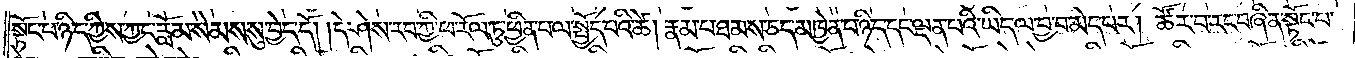སྟོང་པ་ཉིད་ཀྱིས་ཀྱང་རློམ་སེམས་སུ་བྱེད་དོ། །དེ་ཤེས་རབ་ཀྱི་ཕ་རོལ་ཏུ་ཕྱིན་པ་ལ་སྤྱོད་པའི་ཚེ། རྣམ་པ་ཐམས་ཅད་མཁྱེན་པ་ཉིད་དང་ལྡན་པའི་ཡིད་ལ་བྱ་བ་མེད་པར། ཚོར་བ་རང་བཞིན་སྟོང་པ་
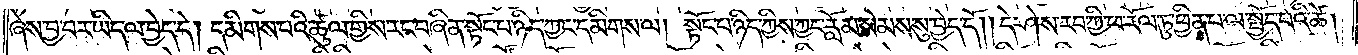ཞེས་བྱ་བར་ཡིད་ལ་བྱེད་དེ། དམིགས་པའི་ཚུལ་གྱིས་རང་བཞིན་སྟོང་པ་ཉིད་ཀྱང་དམིགས་ལ། སྟོང་པ་ཉིད་ཀྱིས་ཀྱང་རློམ་སེམས་སུ་བྱེད་དོ། །དེ་ཤེས་རབ་ཀྱི་ཕ་རོལ་ཏུ་ཕྱིན་པ་ལ་སྤྱོད་པའི་ཚེ།
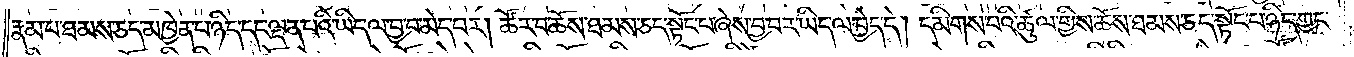རྣམ་པ་ཐམས་ཅད་མཁྱེན་པ་ཉིད་དང་ལྡན་པའི་ཡིད་ལ་བྱ་བ་མེད་པར། ཚོར་བ་ཆོས་ཐམས་ཅད་སྟོང་པ་ཞེས་བྱ་བར་ཡིད་ལ་བྱེད་དེ། དམིགས་པའི་ཚུལ་གྱིས་ཆོས་ཐམས་ཅད་སྟོང་པ་ཉིད་ཀྱང་
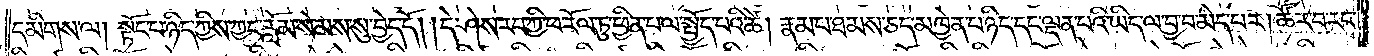དམིགས་ལ། སྟོང་པ་ཉིད་ཀྱིས་ཀྱང་རློམ་སེམས་སུ་བྱེད་དོ། །དེ་ཤེས་རབ་ཀྱི་ཕ་རོལ་ཏུ་ཕྱིན་པ་ལ་སྤྱོད་པའི་ཚེ། རྣམ་པ་ཐམས་ཅད་མཁྱེན་པ་ཉིད་དང་ལྡན་པའི་ཡིད་ལ་བྱ་བ་མེད་པར། ཚོར་བ་རང་
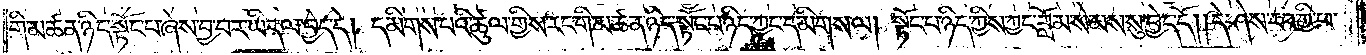གི་མཚན་ཉིད་སྟོང་པ་ཞེས་བྱ་བར་ཡིད་ལ་བྱེད་དེ། དམིགས་པའི་ཚུལ་གྱིས་རང་གི་མཚན་ཉིད་སྟོང་པ་ཉིད་ཀྱང་དམིགས་ལ། སྟོང་པ་ཉིད་ཀྱིས་ཀྱང་རློམ་སེམས་སུ་བྱེད་དོ། །དེ་ཤེས་རབ་ཀྱི་ཕ་
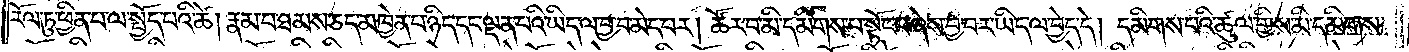རོལ་ཏུ་ཕྱིན་པ་ལ་སྤྱོད་པའི་ཚེ། རྣམ་པ་ཐམས་ཅད་མཁྱེན་པ་ཉིད་དང་ལྡན་པའི་ཡིད་ལ་བྱ་བ་མེད་པར། ཚོར་བ་མི་དམིགས་པ་སྟོང་པ་ཞེས་བྱ་བར་ཡིད་ལ་བྱེད་དེ། དམིགས་པའི་ཚུལ་གྱིས་མི་དམིགས་
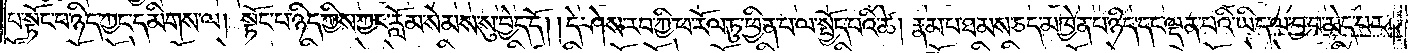པ་སྟོང་པ་ཉིད་ཀྱང་དམིགས་ལ། སྟོང་པ་ཉིད་ཀྱིས་ཀྱང་རློམ་སེམས་སུ་བྱེད་དོ། །དེ་ཤེས་རབ་ཀྱི་ཕ་རོལ་ཏུ་ཕྱིན་པ་ལ་སྤྱོད་པའི་ཚེ། རྣམ་པ་ཐམས་ཅད་མཁྱེན་པ་ཉིད་དང་ལྡན་པའི་ཡིད་ལ་བྱ་བ་མེད་པར།
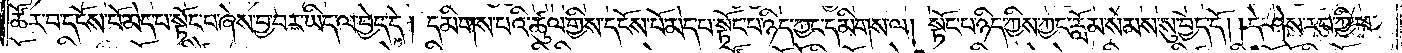ཚོར་བ་དངོས་པོ་མེད་པ་སྟོང་པ་ཞེས་བྱ་བར་ཡིད་ལ་བྱེད་དེ། དམིགས་པའི་ཚུལ་གྱིས་དངོས་པོ་མེད་པ་སྟོང་པ་ཉིད་ཀྱང་དམིགས་ལ། སྟོང་པ་ཉིད་ཀྱིས་ཀྱང་རློམ་སེམས་སུ་བྱེད་དོ། །དེ་ཤེས་རབ་ཀྱི་ཕ་
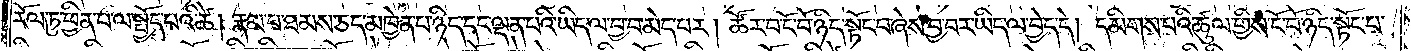རོལ་ཏུ་ཕྱིན་པ་ལ་སྤྱོད་པའི་ཚེ། རྣམ་པ་ཐམས་ཅད་མཁྱེན་པ་ཉིད་དང་ལྡན་པའི་ཡིད་ལ་བྱ་བ་མེད་པར། ཚོར་བ་ངོ་བོ་ཉིད་སྟོང་པ་ཞེས་བྱ་བར་ཡིད་ལ་བྱེད་དེ། དམིགས་པའི་ཚུལ་གྱིས་ངོ་བོ་ཉིད་སྟོང་པ་
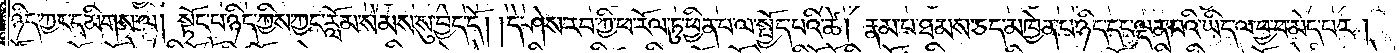ཉིད་ཀྱང་དམིགས་ལ། སྟོང་པ་ཉིད་ཀྱིས་ཀྱང་རློམ་སེམས་སུ་བྱེད་དོ། །དེ་ཤེས་རབ་ཀྱི་ཕ་རོལ་ཏུ་ཕྱིན་པ་ལ་སྤྱོད་པའི་ཚེ། རྣམ་པ་ཐམས་ཅད་མཁྱེན་པ་ཉིད་དང་ལྡན་པའི་ཡིད་ལ་བྱ་བ་མེད་པར།
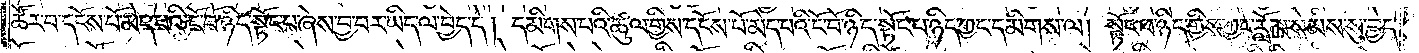ཚོར་བ་དངོས་པོ་མེད་པའི་ངོ་བོ་ཉིད་སྟོང་པ་ཞེས་བྱ་བར་ཡིད་ལ་བྱེད་དེ། དམིགས་པའི་ཚུལ་གྱིས་དངོས་པོ་མེད་པའི་ངོ་བོ་ཉིད་སྟོང་པ་ཉིད་ཀྱང་དམིགས་ལ། སྟོང་པ་ཉིད་ཀྱིས་ཀྱང་རློམ་སེམས་སུ་བྱེད་
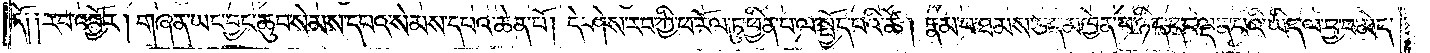དོ། །རབ་འབྱོར། གཞན་ཡང་བྱང་ཆུབ་སེམས་དཔའ་སེམས་དཔའ་ཆེན་པོ། དེ་ཤེས་རབ་ཀྱི་ཕ་རོལ་ཏུ་ཕྱིན་པ་ལ་སྤྱོད་པའི་ཚེ། རྣམ་པ་ཐམས་ཅད་མཁྱེན་པ་ཉིད་དང་ལྡན་པའི་ཡིད་ལ་བྱ་བ་མེད་
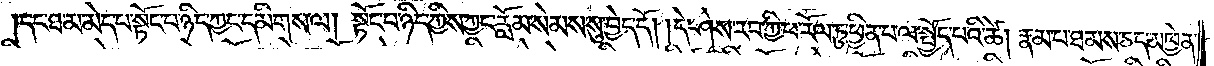དང་ཐ་མ་མེད་པ་སྟོང་པ་ཉིད་ཀྱང་དམིགས་ལ། སྟོང་པ་ཉིད་ཀྱིས་ཀྱང་རློམ་སེམས་སུ་བྱེད་དོ། །དེ་ཤེས་རབ་ཀྱི་ཕ་རོལ་ཏུ་ཕྱིན་པ་ལ་སྤྱོད་པའི་ཚེ། རྣམ་པ་ཐམས་ཅད་མཁྱེན་
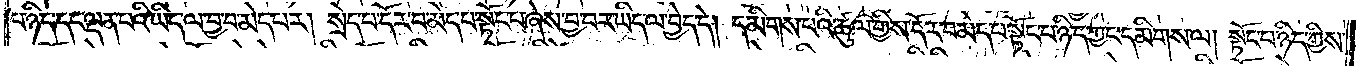པ་ཉིད་དང་ལྡན་པའི་ཡིད་ལ་བྱ་བ་མེད་པར། སྲེད་པ་དོར་བ་མེད་པ་སྟོང་པ་ཞེས་བྱ་བར་ཡིད་ལ་བྱེད་དེ། དམིགས་པའི་ཚུལ་གྱིས་དོར་བ་མེད་པ་སྟོང་པ་ཉིད་ཀྱང་དམིགས་ལ། སྟོང་པ་ཉིད་ཀྱིས་
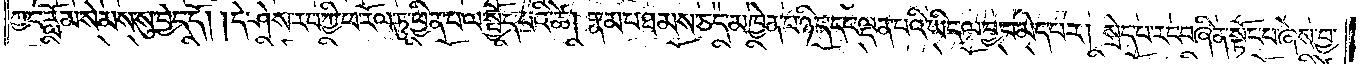ཀྱང་རློམ་སེམས་སུ་བྱེད་དོ། །དེ་ཤེས་རབ་ཀྱི་ཕ་རོལ་ཏུ་ཕྱིན་པ་ལ་སྤྱོད་པའི་ཚེ། རྣམ་པ་ཐམས་ཅད་མཁྱེན་པ་ཉིད་དང་ལྡན་པའི་ཡིད་ལ་བྱ་བ་མེད་པར། སྲེད་པ་རང་བཞིན་སྟོང་པ་ཞེས་བྱ་
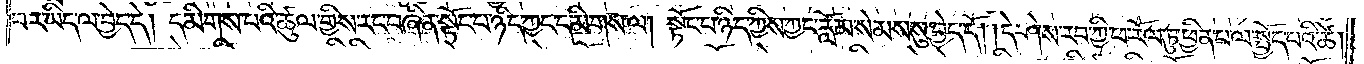བར་ཡིད་ལ་བྱེད་དེ། དམིགས་པའི་ཚུལ་གྱིས་རང་བཞིན་སྟོང་པ་ཉིད་ཀྱང་དམིགས་ལ། སྟོང་པ་ཉིད་ཀྱིས་ཀྱང་རློམ་སེམས་སུ་བྱེད་དོ། །དེ་ཤེས་རབ་ཀྱི་ཕ་རོལ་ཏུ་ཕྱིན་པ་ལ་སྤྱོད་པའི་ཚེ།
